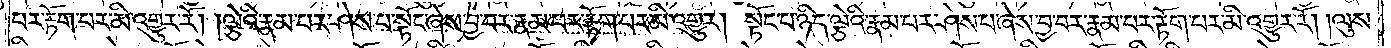པར་རྟོག་པར་མི་འགྱུར་རོ། །ལྕེའི་རྣམ་པར་ཤེས་པ་སྟོང་ཞེས་བྱ་བར་རྣམ་པར་རྟོག་པར་མི་འགྱུར། སྟོང་པ་ཉིད་ལྕེའི་རྣམ་པར་ཤེས་པ་ཞེས་བྱ་བར་རྣམ་པར་རྟོག་པར་མི་འགྱུར་རོ། །ལུས་
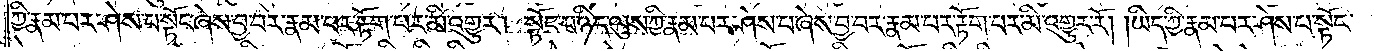ཀྱི་རྣམ་པར་ཤེས་པ་སྟོང་ཞེས་བྱ་བར་རྣམ་པར་རྟོག་པར་མི་འགྱུར། སྟོང་པ་ཉིད་ལུས་ཀྱི་རྣམ་པར་ཤེས་པ་ཞེས་བྱ་བར་རྣམ་པར་རྟོག་པར་མི་འགྱུར་རོ། །ཡིད་ཀྱི་རྣམ་པར་ཤེས་པ་སྟོང་
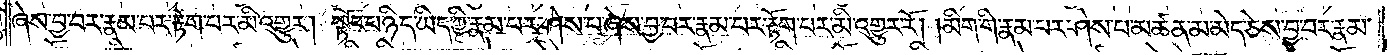ཞེས་བྱ་བར་རྣམ་པར་རྟོག་པར་མི་འགྱུར། སྟོང་པ་ཉིད་ཡིད་ཀྱི་རྣམ་པར་ཤེས་པ་ཞེས་བྱ་བར་རྣམ་པར་རྟོག་པར་མི་འགྱུར་རོ། །མིག་གི་རྣམ་པར་ཤེས་པ་མཚན་མ་མེད་ཅེས་བྱ་བར་རྣམ་
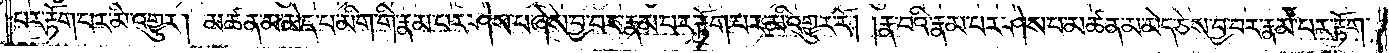པར་རྟོག་པར་མི་འགྱུར། མཚན་མ་མེད་པ་མིག་གི་རྣམ་པར་ཤེས་པ་ཞེས་བྱ་བར་རྣམ་པར་རྟོག་པར་མི་འགྱུར་རོ། །རྣ་བའི་རྣམ་པར་ཤེས་པ་མཚན་མ་མེད་ཅེས་བྱ་བར་རྣམ་པར་རྟོག་
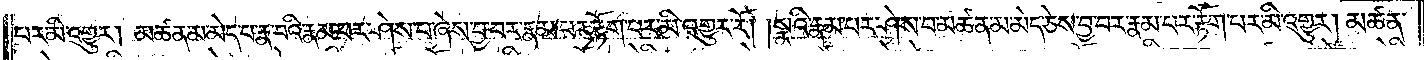པར་མི་འགྱུར། མཚན་མ་མེད་པར་རྣ་བའི་རྣམ་པར་ཤེས་པ་ཞེས་བྱ་བར་རྣམ་པར་རྟོག་པར་མི་འགྱུར་རོ། །སྣའི་རྣམ་པར་ཤེས་པ་མཚན་མ་མེད་ཅེས་བྱ་བར་རྣམ་པར་རྟོག་པར་མི་འགྱུར། མཚན་
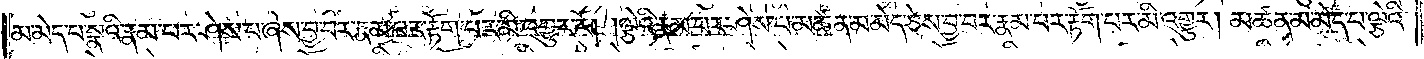མ་མེད་པ་སྣའི་རྣམ་པར་ཤེས་པ་ཞེས་བྱ་བར་རྣམ་པར་རྟོག་པར་མི་འགྱུར་རོ། །ལྕེའི་རྣམ་པར་ཤེས་པ་མཚན་མ་མེད་ཅེས་བྱ་བར་རྣམ་པར་རྟོག་པར་མི་འགྱུར། མཚན་མ་མེད་པ་ལྕེའི་
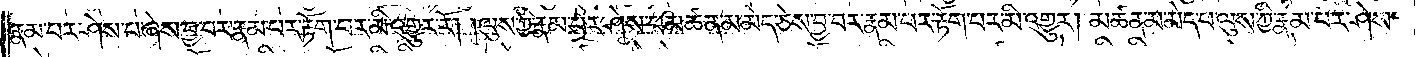རྣམ་པར་ཤེས་པ་ཞེས་བྱ་བར་རྣམ་པར་རྟོག་པར་མི་འགྱུར་རོ། །ལུས་ཀྱི་རྣམ་པར་ཤེས་པ་མཚན་མ་མེད་ཅེས་བྱ་བར་རྣམ་པར་རྟོག་པར་མི་འགྱུར། མཚན་མ་མེད་པ་ལུས་ཀྱི་རྣམ་པར་ཤེས་
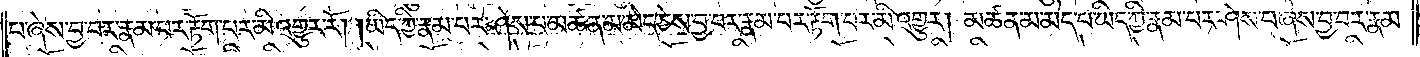པ་ཞེས་བྱ་བར་རྣམ་པར་རྟོག་པར་མི་འགྱུར་རོ། །ཡིད་ཀྱི་རྣམ་པར་ཤེས་པ་མཚན་མ་མེད་ཅེས་བྱ་བར་རྣམ་པར་རྟོག་པར་མི་འགྱུར། མཚན་མ་མེད་པ་ཡིད་ཀྱི་རྣམ་པར་ཤེས་པ་ཞེས་བྱ་བར་རྣམ་
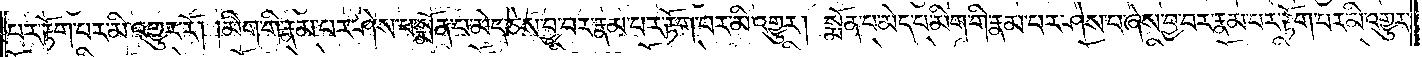པར་རྟོག་པར་མི་འགྱུར་རོ། །མིག་གི་རྣམ་པར་ཤེས་པ་སྨོན་པ་མེད་ཅེས་བྱ་བར་རྣམ་པར་རྟོག་པར་མི་འགྱུར། སྨོན་པ་མེད་པ་མིག་གི་རྣམ་པར་ཤེས་པ་ཞེས་བྱ་བར་རྣམ་པར་རྟོག་པར་མི་འགྱུར་
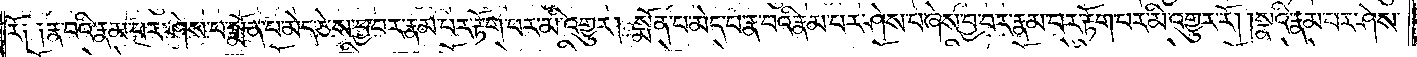རོ༏ ༏རྣ་བའི་རྣམ་པར་ཤེས་པ་སྨོན་པ་མེད་ཅེས་བྱ་བར་རྣམ་པར་རྟོག་པར་མི་འགྱུར། སྨོན་པ་མེད་པ་རྣ་བའི་རྣམ་པར་ཤེས་པ་ཞེས་བྱ་བར་རྣམ་པར་རྟོག་པར་མི་འགྱུར་རོ། །སྣའི་རྣམ་པར་ཤེས་
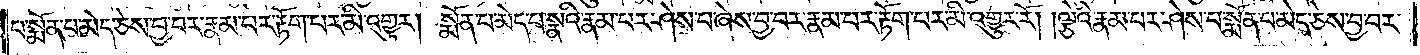པ་སྨོན་པ་མེད་ཅེས་བྱ་བར་རྣམ་པར་རྟོག་པར་མི་འགྱུར། སྨོན་པ་མེད་པ་སྣའི་རྣམ་པར་ཤེས་པ་ཞེས་བྱ་བར་རྣམ་པར་རྟོག་པར་མི་འགྱུར་རོ། །ལྕེའི་རྣམ་པར་ཤེས་པ་སྨོན་པ་མད་ཅེས་བྱ་བར་
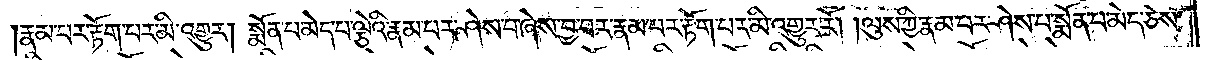རྣམ་པར་རྟོག་པར་མི་འགྱུར། སྨོན་པ་མེད་པ་ལྕེའི་རྣམ་པར་ཤེས་པ་ཞེས་བྱ་བར་རྣམ་པར་རྟོག་པར་མི་འགྱུར་རོ། །ལུས་ཀྱི་རྣམ་པར་ཤེས་པ་སྨོན་པ་མེད་ཅེས་
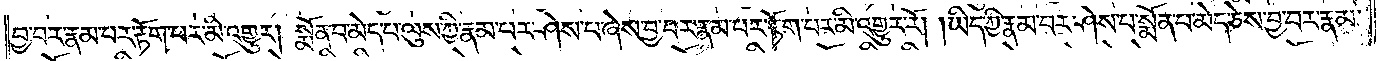བྱ་བར་རྣམ་པར་རྟོག་པར་མི་འགྱུར། སྨོན་པ་མེད་པ་ལུས་ཀྱི་རྣམ་པར་ཤེས་པ་ཞེས་བྱ་བར་རྣམ་པར་རྟོག་པར་མི་འགྱུར་རོ། །ཡིད་ཀྱི་རྣམ་པར་ཤེས་པ་སྨོན་པ་མེད་ཅེས་བྱ་བར་རྣམ་
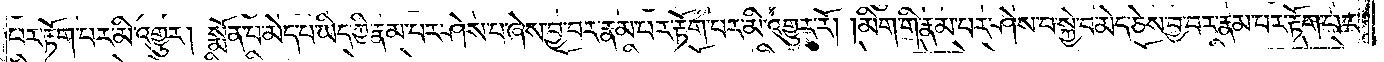པར་རྟོག་པར་མི་འགྱུར། སྨོན་པ་མེད་པ་ཡིད་ཀྱི་རྣམ་པར་ཤེས་པ་ཞེས་བྱ་བར་རྣམ་པར་རྟོག་པར་མི་འགྱུར་རོ། །མིག་གི་རྣམ་པར་ཤེས་པ་སྐྱེ་བ་མེད་ཅེས་བྱ་བར་རྣམ་པར་རྟོག་པར་
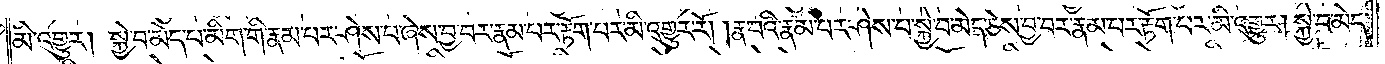མི་འགྱུར། སྐྱེ་བ་མེད་པ་མིག་གི་རྣམ་པར་ཤེས་པ་ཞེས་བྱ་བར་རྣམ་པར་རྟོག་པར་མི་འགྱུར་རོ། །རྣ་བའི་རྣམ་པར་ཤེས་པ་སྐྱེ་བ་མེད་ཅེས་བྱ་བར་རྣམ་པར་རྟོག་པར་མི་འགྱུར། སྐྱེ་བ་མེད་
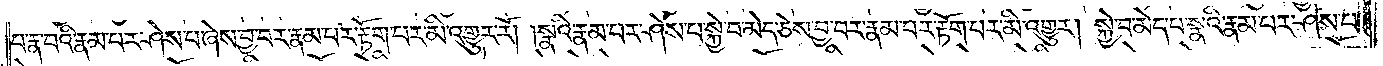པ་རྣ་བའི་རྣམ་པར་ཤེས་པ་ཞེས་བྱ་བར་རྣམ་པར་རྟོག་པར་མི་འགྱུར་རོ། །སྣའི་རྣམ་པར་ཤེས་པ་སྐྱེ་བ་མེད་ཅེས་བྱ་བར་རྣམ་པར་རྟོག་པར་མི་འགྱུར། སྐྱེ་བ་མེད་པ་སྣའི་རྣམ་པར་ཤེས་པ་
